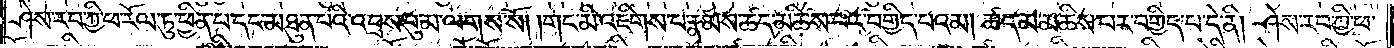ཤེས་རབ་ཀྱི་ཕ་རོལ་ཏུ་ཕྱིན་པ་དང་མཐུན་པའི་འབྲས་བུ་མ་ལགས་སོ། གང་མི་འཇིགས་པ་རྣམས་ཚད་མཆིས་པར་བགྱིད་པའམ། ཚད་མ་མཆིས་པར་བགྱིད་པ་དེ་ནི། ཤེས་རབ་ཀྱི་ཕ་
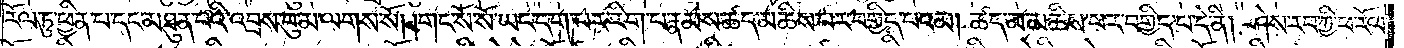རོལ་ཏུ་ཕྱིན་པ་དང་མཐུན་པའི་འབྲས་བུ་མ་ལགས་སོ། །གང་སོ་སོ་ཡང་དག་པར་རིག་པ་རྣམས་ཚད་མཆིས་པར་བགྱིད་པའམ། ཚད་མ་མཆིས་པར་བགྱིད་པ་དེ་ནི། ཤེས་རབ་ཀྱི་ཕ་རོལ་
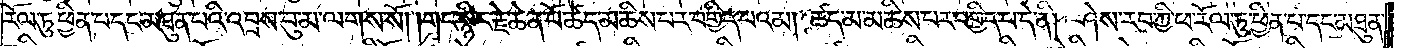རོལ་ཏུ་ཕྱིན་པ་དང་མཐུན་པའི་འབྲས་བུ་མ་ལགས་སོ། །གང་སྙིང་རྗེ་ཆེན་པོ་ཚད་མཆིས་པར་བགྱིད་པའམ། ཚད་མ་མཆིས་པར་བགྱིད་པ་དེ་ནི། ཤེས་རབ་ཀྱི་ཕ་རོལ་ཏུ་ཕྱིན་པ་དང་མཐུན་
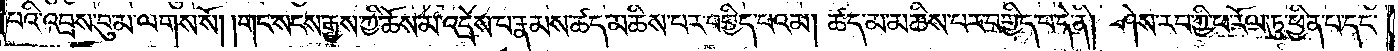པའི་འབྲས་བུ་མ་ལགས་སོ། །གང་སངས་རྒྱས་ཀྱི་ཆོས་མ་འདྲེས་པ་རྣམས་ཚད་མཆིས་པར་བགྱིད་པའམ། ཚད་མ་མཆིས་པར་བགྱིད་པ་དེ་ནི། ཤེས་རབ་ཀྱི་ཕ་རོལ་ཏུ་ཕྱིན་པ་དང་
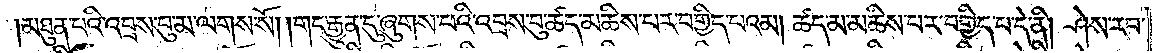མཐུན་པའི་འབྲས་བུ་མ་ལགས་སོ། །གང་རྒྱུན་དུ་ཞུགས་པའི་འབྲས་བུ་ཚད་མཆིས་པར་བགྱིད་པའམ། ཚད་མ་མཆིས་པར་བགྱིད་པ་དེ་ནི། ཤེས་རབ་
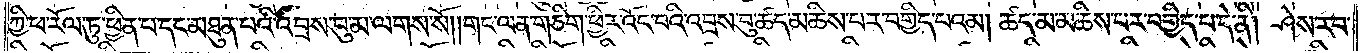ཀྱི་ཕ་རོལ་ཏུ་ཕྱིན་པ་དང་མཐུན་པའི་འབྲས་བུ་མ་ལགས་སོ། །གང་ལན་གཅིག་ཕྱིར་འོང་བའི་འབྲས་བུ་ཆེད་མཆིས་པར་བགྱིད་པའམ། ཚད་མ་མཆིས་པར་བགྱིད་པ་དེ་ནི། ཤེས་རབ་
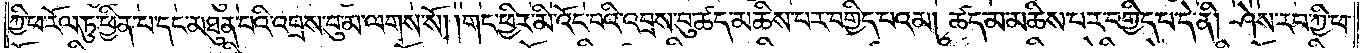ཀྱི་ཕ་རོལ་ཏུ་ཕྱིན་པ་དང་མཐུན་པའི་འབྲས་བུ་མ་ལགས་སོ། །གང་ཕྱིར་མི་འོང་བའི་འབྲས་བུ་ཚད་མཆིས་པར་བགྱིད་པའམ། ཚད་མ་མཆིས་པར་བགྱིད་པ་དེ་ནི། ཤེས་རབ་ཀྱི་ཕ་
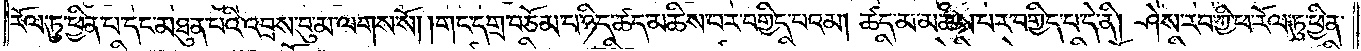རོལ་ཏུ་ཕྱིན་པ་དང་མཐུན་པའི་འབྲས་བུ་མ་ལགས་སོ། །གང་དགྲ་བཅོམ་པ་ཉིད་ཚད་མཆིས་པར་བགྱིད་པའམ། ཚད་མ་མཆིས་པར་བགྱིད་པ་དེ་ནི། ཤེས་རབ་ཀྱི་ཕ་རོལ་ཏུ་ཕྱིན་
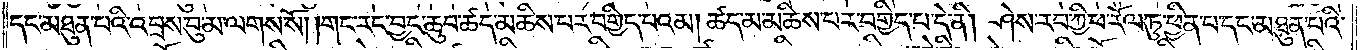དང་མཐུན་པའི་འབྲས་བུ་མ་ལགས་སོ། །གང་རང་བྱང་ཆུབ་ཚད་མཆིས་པར་བགྱིད་པའམ། ཚད་མ་མཆིས་པར་བགྱིད་པ་དེ་ནི། ཤེས་རབ་ཀྱི་ཕ་རོལ་ཏུ་ཕྱིན་པ་དང་མཐུན་པའི་
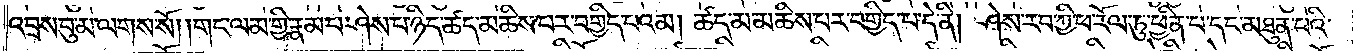འབྲས་བུ་མ་ལགས་སོ། །གང་ལམ་གྱི་རྣམ་པ་ཤེས་པ་ཉིད་ཚད་མཆིས་པར་བགྱིད་པའམ། ཚད་མ་མཆིས་པར་བགྱིད་པ་དེ་ནི། ཤེས་རབ་ཀྱི་ཕ་རོལ་ཏུ་ཕྱིན་པ་དང་མཐུན་པའི་
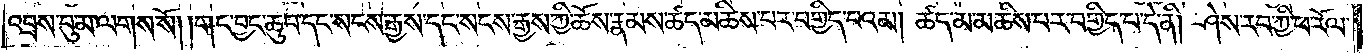འབྲས་བུ་མ་ལགས་སོ། །གང་བྱང་ཆུབ་དང་སངས་རྒྱས་དང་སངས་རྒྱས་ཀྱི་ཆོས་རྣམས་ཚད་མཆིས་པར་བགྱིད་པའམ། ཚད་མ་མཆིས་པར་བགྱིད་པ་དེ་ནི། ཤེས་རབ་ཀྱི་ཕ་རོལ་
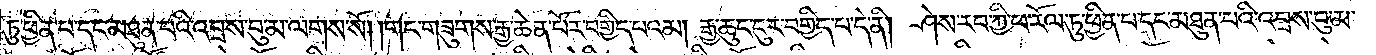ཏུ་ཕྱིན་པ་དང་མཐུན་པའི་འབྲས་བུ་མ་ལགས་སོ། །གང་གཟུགས་རྒྱ་ཆེན་པོར་བགྱིད་པའམ། རྒྱ་ཆུང་ངུར་བགྱིད་པ་དེ་ནི། ཤེས་རབ་ཀྱི་ཕ་རོལ་ཏུ་ཕྱིན་པ་དང་མཐུན་པའི་འབྲས་བུ་མ་
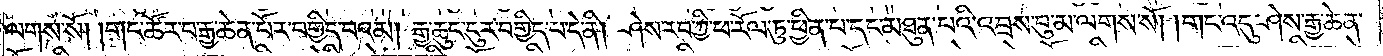ལགས་སོ། །གང་ཚོར་བ་རྒྱ་ཆེན་པོར་བགྱིད་པའམ། རྒྱ་ཆུང་ངུར་བགྱིད་པ་དེ་ནི། ཤེས་རབ་ཀྱི་ཕ་རོལ་ཏུ་ཕྱིན་པ་དང་མཐུན་པའི་འབྲས་བུ་མ་ལགས་སོ། །གང་འདུ་ཤེས་རྒྱ་ཆེན་
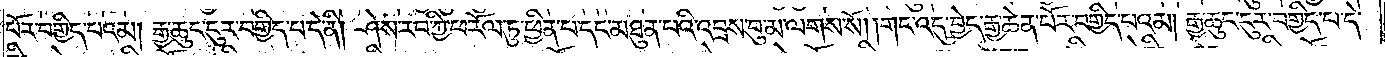པོར་བགྱིད་པའམ། རྒྱ་ཆུང་ངུར་བགྱིད་པ་དེ་ནི། ཤེས་རབ་ཀྱི་ཕ་རོལ་ཏུ་ཕྱིན་པ་དང་མཐུན་པའི་འབྲས་བུ་མ་ལགས་སོ། །གང་འདུ་བྱེད་རྒྱ་ཆེན་པོར་བགྱིད་པའམ། རྒྱ་ཆུང་ངུར་བགྱིད་པ་དེ་
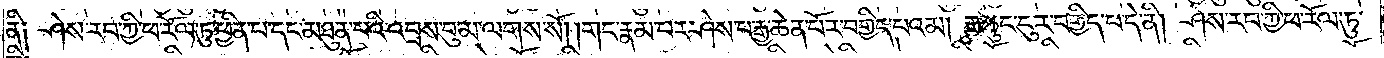ནི༑ ཤེས་རབ་ཀྱི་ཕ་རོལ་ཏུ་ཕྱིན་པ་དང་མཐུན་པའི་འབྲས་བུ་མ་ལགས་སོ། །གང་རྣམ་པར་ཤེས་པ་རྒྱ་ཆེན་པོར་བགྱིད་པའམ། རྒྱ་ཆུང་ངུར་བགྱིད་པ་དེ་ནི། ཤེས་རབ་ཀྱི་ཕ་རོལ་ཏུ་
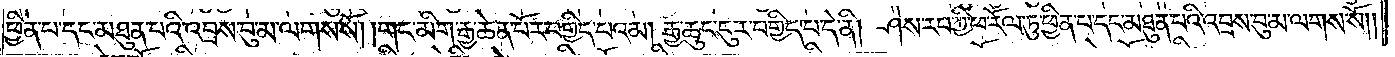ཕྱིན་པ་དང་མཐུན་པའི་འབྲས་བུ་མ་ལགས་སོ། །གང་མིག་རྒྱ་ཆེན་པོར་བགྱིད་པའམ། རྒྱ་ཆུང་ངུར་བགྱིད་པ་དེ་ནི། ཤེས་རབ་ཀྱི་ཕ་རོལ་ཏུ་ཕྱིན་པ་དང་མཐུན་པའི་འབྲས་བུ་མ་ལགས་སོ། །
